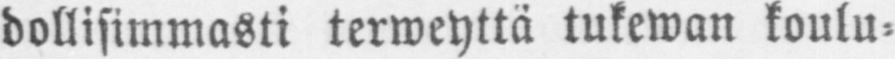dollisimmasti terweyttä tukewan koulu-
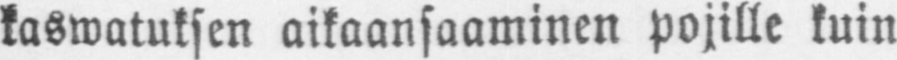kaswatuksen aikaansaaminen pojille kuin
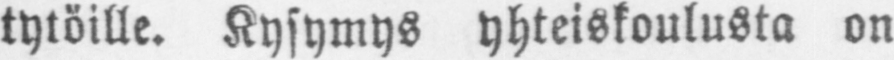tytöille. Kysymys yhteiskoulusta on
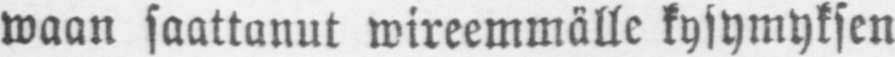waan saattanut wireemmällc kysymyksen
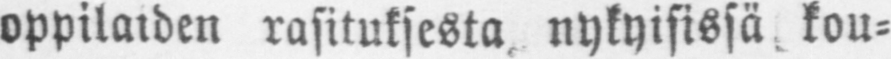oppilaiden rasituksesta nykyisissät kou-
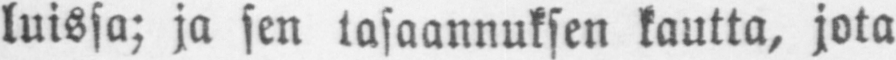luissa; ja sen tasaannuksen kautta, jota
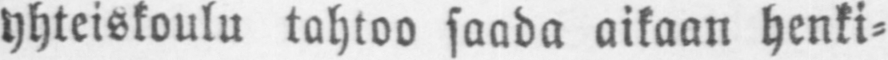yhteiskoulu tahtoo saada aikaan henki-
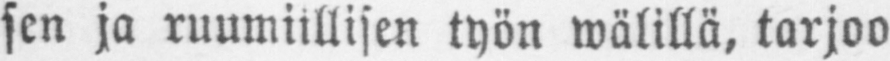sen ja ruumiillisen työn wälillä, tarjoo
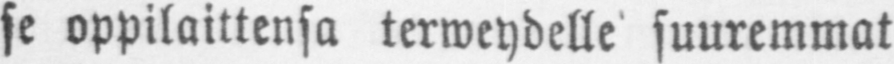se oppilaittensa terweydelle suuremmat
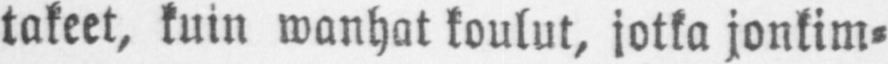takeet, kuin wanhat koulut, jotka jonkim-
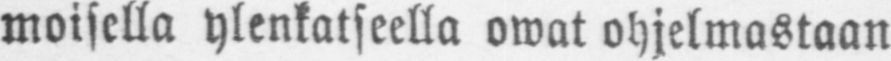moisella ylenkatseella owat ohjelmastaan
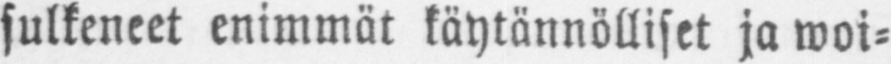sulkeneet enimmät käytännölliset ja woi-
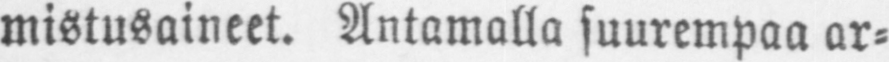mistusaineet. Antamalla suurempaa ar-
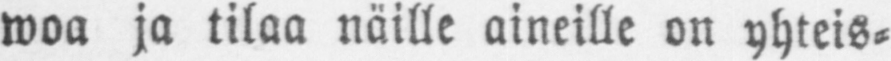woa ja tilaa näille aineille on yhteis-
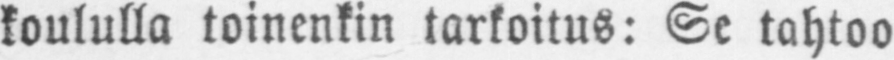koululla toinenkin tarkoitus: Se tahtoo
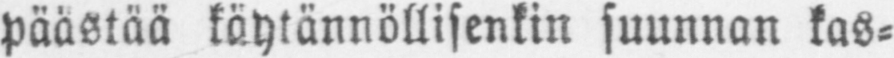päästää käytännöllisenkin suunnan kas-
